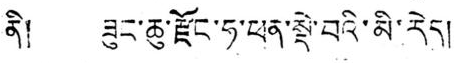ནི། ཟུང་ཆུ་རྫོང་ཧ་ཕན་སྡེ་བའི་མི་རེད།
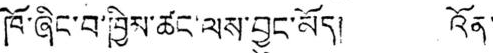ཁོ་ཞིང་བ་ཁྱིམ་ཚང་ལས་བྱུང་མོད། འོན་
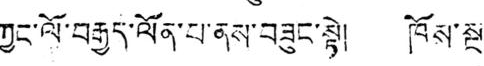ཀྱང་ལོ་བརྒྱད་ལོན་པ་ནས་བཟུང་སྟེ། ཁོས་སྔ་
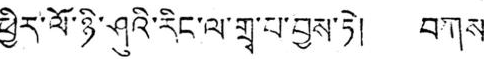ཕྱིར་ལོ་ཉི་ཤུའི་རིང་ལ་གྲྭ་པ་བྱས་ཏེ། བཀས་
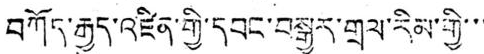བཀོད་རྒྱུད་འཛིན་གྱི་དབང་བསྒྱུར་གྲལ་རིམ་གྱི་་་་
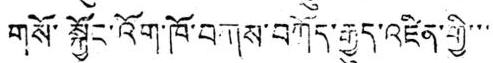གསོ་སྐྱོང་འོག་ཁོ་བཀས་བཀོད་རྒྱུད་འཛིན་གྱི་་་་
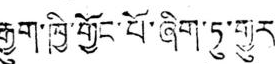རྒྱུག་ཁྱི་གྱོང་པོ་ཞིག་ཏུ་གྱུར།
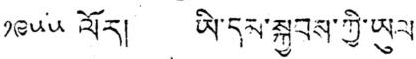༡༩༥༥ ལོར། ཡི་དམ་སྐྱབས་ཀྱི་ཡུལ་
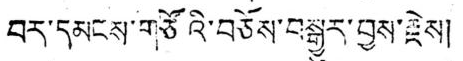བར་དམངས་གཙོའི་བཅོས་བསྒྱུར་བྱས་རྗེས།
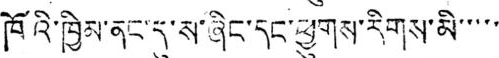ཁོའི་ཁྱིམ་ནང་དུ་ས་ཞིང་དང་ཕྱུགས་རིགས་མི་་་་་
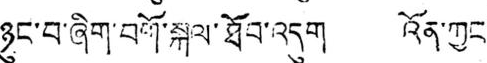ཉུང་བ་ཞིག་བགོ་སྐལ་ཐོབ་འདུག འོན་ཀྱང་
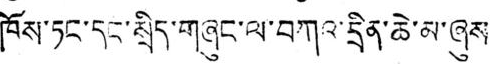ཁོས་ཏང་དང་སྲིད་གཞུང་ལ་བཀའ་དྲིན་ཆེ་མ་ཞུས་
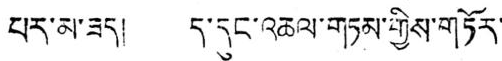པར་མ་ཟད། ད་དུང་འཆལ་གཏམ་གྱིས་གཏོར་
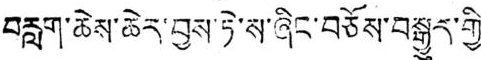བརླག་ཆེས་ཆེར་བྱས་ཏེ་ས་ཞིང་བཅོས་བསྒྱུར་གྱི་་
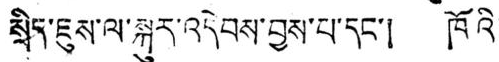སྲིད་ཇུས་ལ་སྐུར་འདེབས་བྱས་པ་དང་། ཁོའི་
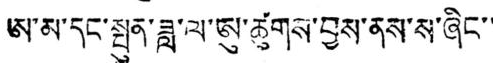ཨ་མ་དང་སྤུན་ཟླ་ལ་ཨུ་ཚུགས་བྱས་ནས་ས་ཞིང་་་
